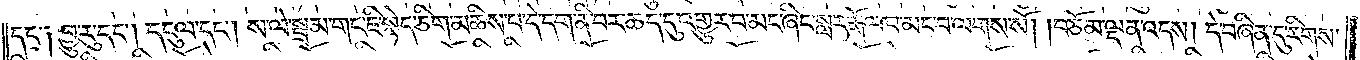དང་༑ བྱུ་རུ་དང༌། དངུལ་དང༌། ས་ལེ་སྦྲམ་གང་ཇི་སྙེད་ཅིག་མཆིས་པ་དེ་དག་ནི་བར་ཆད་དུ་འགྱུར་བ་མང་ཞིང་སླར་རྒོལ་བ་མང་བ་ལགས་སོ། །བཅོམ་ལྡན་འདས། དེ་བཞིན་དུ་རིགས་
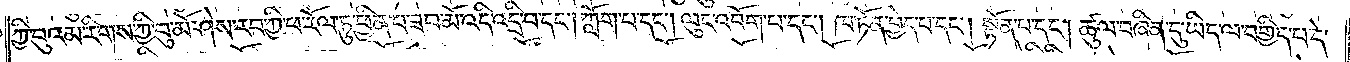ཀྱི་བུའམ་རིགས་ཀྱི་བུ་མོ་ཤེས་རབ་ཀྱི་ཕ་རོལ་ཏུ་ཕྱིན་པ་ཟབ་མོ་འདི་འདྲི་བ་དང༌། ཀློག་པ་དང༌། ལུང་འབོག་པ་དང༌། ཁ་ཏོན་བྱེད་པ་དང༌། སྟོན་པ་དང༌། ཚུལ་བཞིན་དུ་ཡིད་ལ་བགྱིད་པ་དེ་
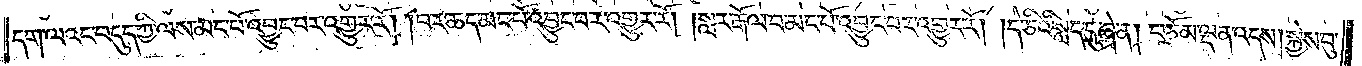དག་ལའང་བདུད་ཀྱི་ལས་མང་པོ་འབྱུང་བར་འགྱུར་རོ། །བར་ཆད་མང་པོ་འབྱུང་བར་འགྱུར་རོ། །སླར་རྒོལ་བ་མང་པོ་འབྱུང་བར་འགྱུར་རོ། །དེ་ཅིའི་སླད་དུ་ཞེ་ན། བཅོམ་ལྡན་འདས། སྐྱེས་བུ་
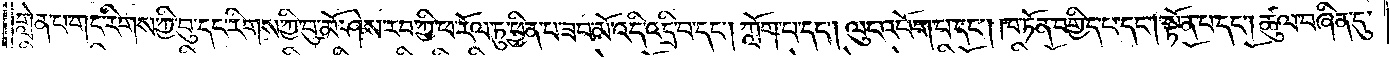གླེན་པ་གང་རིགས་ཀྱི་བུ་དང་རིགས་ཀྱི་བུ་མོ་ཤེས་རབ་ཀྱི་ཕ་རོལ་ཏུ་ཕྱིན་པ་ཟབ་མོ་འདི་འདྲི་བ་དང༌། ཀློག་པ་དང༌། ལུང་འབོག་པ་དང༌། ཁ་ཏོན་བགྱིད་པ་དང༌། སྟོན་པ་དང༌། ཚུལ་བཞིན་དུ་
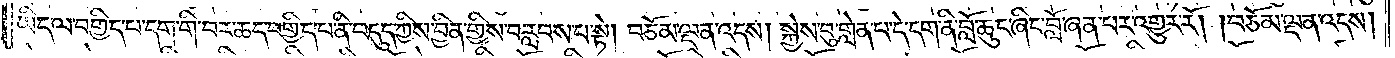ཡིད་ལ་བགྱིད་པ་དག་གི་བར་ཆད་བགྱིད་པ་ནི་བདུད་ཀྱིས་བྱིན་གྱིས་བརླབས་པ་སྟེ། བཅོམ་ལྡན་འདས། སྐྱེས་བུ་གླེན་པ་དེ་དག་ནི་བློ་ཆུང་ཞིང་བློ་ཞན་པར་འགྱུར་རོ། །བཅོམ་ལྡན་འདས།
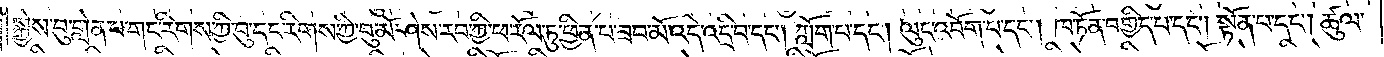སྐྱེས་བུ་གླེན་པ་གང་རིགས་ཀྱི་བུ་དང་རིགས་ཀྱི་བུ་མོ་ཤེས་རབ་ཀྱི་ཕ་རོལ་ཏུ་ཕྱིན་པ་ཟབ་མོ་འདི་འདྲི་བ་དང༌། ཀློག་པ་དང༌། ལུང་འབོག་པ་དང༌། ཁ་ཏོན་བགྱིད་པ་དང༌། སྟོན་པ་དང༌། ཚུལ་
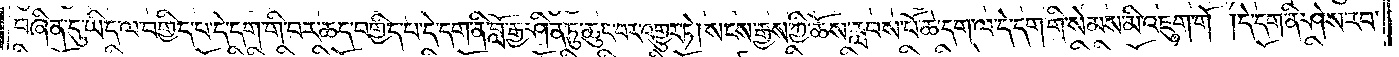བཞིན་དུ་ཡིད་ལ་བགྱིད་པ་དེ་དག་གི་བར་ཆད་བགྱིད་པ་དེ་དག་ནི་བློ་རྒྱ་ཤིན་ཏུ་ཆུང་པར་འགྱུར་ཏེ། སངས་རྒྱས་ཀྱི་ཆོས་རླབས་པ་ཆེ་དག་ལ་དེ་དག་གི་སེམས་མི་འཇུག་གོ །དེ་དག་ནི་ཤེས་རབ་
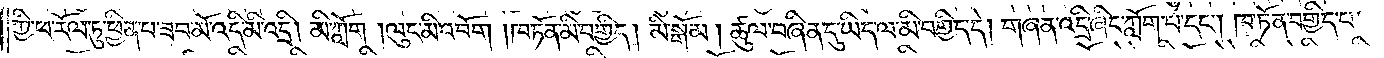ཀྱི་ཕ་རོལ་ཏུ་ཕྱིན་པ་ཟབ་མོ་འདི་མི་འདྲི། མི་ཀློག། ལུང་མི་འབོག་ཁ་ཏོན་མི་བགྱིད། མི་སྒོམ། ཚུལ་བཞིན་དུ་ཡིད་ལ་མི་བགྱིད་དེ། གཞན་འདྲི་ཞིང་ཀློག་པ་དང༌། ཁ་ཏོན་བགྱིད་པ་
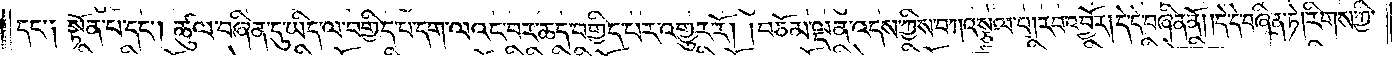དང་༑ སྟོན་པ་དང༌། ཚུལ་བཞིན་དུ་ཡིད་ལ་བགྱིད་པ་དག་ལའང་བར་ཆད་བགྱིད་པར་འགྱུར་རོ། །བཅོམ་ལྡན་འདས་ཀྱིས་བཀའ་སྩལ་པ། རབ་འབྱོར། དེ་དེ་བཞིན་ནོ། །དེ་དེ་བཞིན་ཏེ། རིགས་ཀྱི་
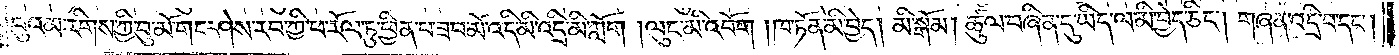བུའམ་རིགས་ཀྱི་བུ་མོ་གང་ཤེས་རབ་ཀྱི་ཕ་རོལ་ཏུ་ཕྱིན་པ་ཟབ་མོ་འདི་མི་འདྲི་མི་ཀློག། ལུང་མི་འབོག། ཁ་ཏོན་མི་བྱེད། མི་སྒོམ། ཚུལ་བཞིན་དུ་ཡིད་ལ་མི་བྱེད་ཅིང༌། གཞན་འདྲི་བ་དང༌།
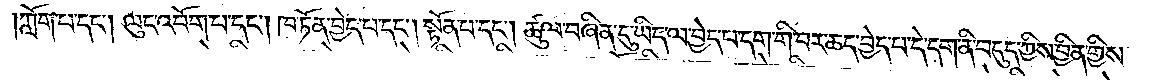ཀློག་པ་དང༌། ལུང་འབོག་པ་དང༌། ཁ་ཏོན་བྱེད་པ་དང༌། སྟོན་པ་དང༌། ཚུལ་བཞིན་དུ་ཡིད་ལ་བྱེད་པ་དག་གི་བར་ཆད་བྱེད་པ་དེ་དག་ནི་བདུད་ཀྱིས་བྱིན་གྱིས་
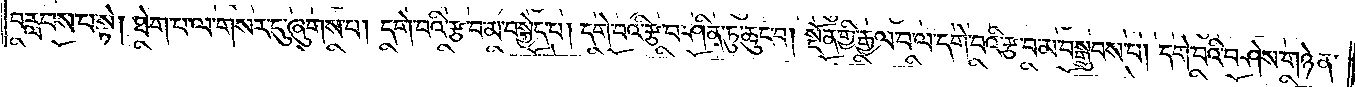བརླབས་པ་སྟེ། ཐེག་པ་ལ་གསར་དུ་ཞུགས་པ་དགེ་བའི་རྩ་བ་མ་བསྐྱེད་པ། དགེ་བའི་རྩ་བ་ཤིན་ཏུ་ཆུང་བ། སྔོན་གྱི་རྒྱལ་བ་ལ་དགེ་བའི་རྩ་བ་མ་བསྒྲུབས་པ། དགེ་བའི་བཤེས་གཉེན་
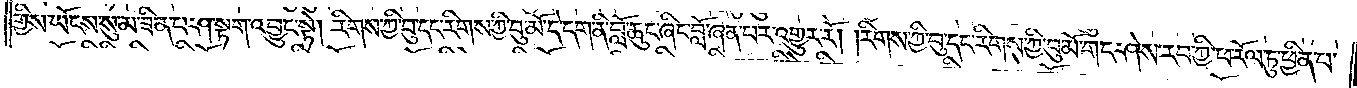གྱིས་ཡོངས་སུ་མ་ཟིན་པ་ཤ་སྟག་འབྱུང་སྟེ། རིགས་ཀྱི་བུ་དང་རིགས་ཀྱི་བུ་མོ་དེ་དག་ནི་བློ་ཆུང་ཞིང་བློ་ཞན་པར་འགྱུར་རོ། །རིགས་ཀྱི་བུ་དང་རིགས་ཀྱི་བུ་མོ་གང་ཤེས་རབ་ཀྱི་ཕ་རོལ་ཏུ་ཕྱིན་པ་
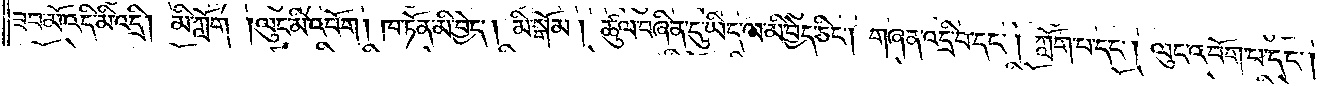ཟབ་མོ་འདི་མི་འདྲི། མི་ཀློག །ལུང་མི་འབོག། ཁ་ཏོན་མི་བྱེད། མི་སྒོམ། ཚུལ་བཞིན་དུ་ཡིད་ལ་མི་བྱེད་ཅིང༌། གཞན་འདྲི་བ་དང༌། ཀློག་པ་དང༌། ལུང་འབོག་པ་དང༌།
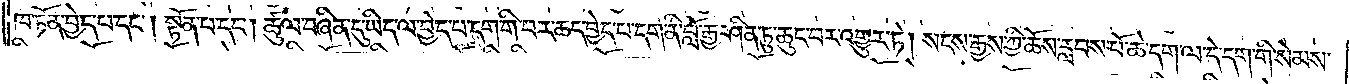ཁ་ཏོན་བྱེད་པ་དང༌། སྟོན་པ་དང༌། ཚུལ་བཞིན་དུ་ཡིད་ལ་བྱེད་པ་དག་གི་བར་ཆད་བྱེད་པ་དག་ནི་བློ་རྒྱ་ཤིན་ཏུ་ཆུང་བར་འགྱུར་ཏེ། །སངས་རྒྱས་ཀྱི་ཆོས་རླབས་པོ་ཆེ་དག་ལ་དེ་དག་གི་སེམས་
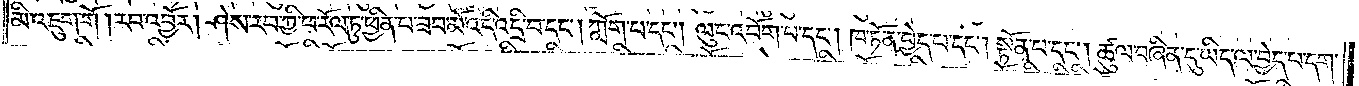མི་འཇུག་གོ །རབ་འབྱོར། ཤེས་རབ་ཀྱི་ཕ་རོལ་ཏུ་ཕྱིན་པ་ཟབ་མོ་འདི་འདྲི་བ་དང༌། ཀློག་པ་དང༌། ལུང་འབོག་པ་དང༌། ཁ་ཏོན་བྱེད་པ་དང༌། སྟོན་པ་དང༌། ཚུལ་བཞིན་དུ་ཡིད་ལ་བྱེད་པ་དག་
